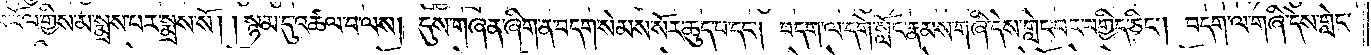ཕ་རོལ་གྱིས་མ་སྨྲས་པར་སྨྲས་སོ། །སྙམ་དུ་འཚལ་བ་ལས། དུས་གཞན་ཞིག་ན་བདག་སེམས་སོར་ཆུད་པ་དང༌། བདག་ལ་དགེ་སློང་རྣམས་གཞི་དེས་གླེང་བར་བགྱིད་ཅིང༌། བདག་ལ་གཞི་དེས་གླེང་
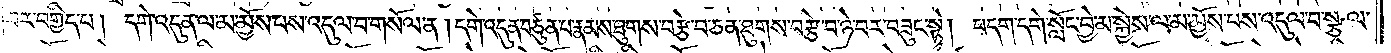བར་བགྱིད་པ། དགེ་འདུན་ལ་མ་མྱོས་པས་འདུལ་བ་གསོལ་ན། དགེ་འདུན་བཙུན་པ་རྣམས་ཐུགས་བརྩེ་བ་ཅན་ཐུགས་བརྩེ་བ་ཉེ་བར་བཟུང་སྟེ། བདག་དགེ་སློང་བྱེ་མ་སྐྱེས་ལ་མ་མྱོས་པས་འདུལ་བ་སྩལ་
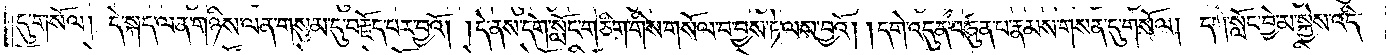དུ་གསོལ། དེ་སྐད་ལན་གཉིས་ལན་གསུམ་དུ་བརྗོད་པར་བྱའོ། །དེ་ནས་དགེ་སློང་གཅིག་གིས་གསོལ་བ་བྱས་ཏེ་ལས་བྱའོ། །དགེ་འདུན་བཙུན་པ་རྣམས་གསན་དུ་གསོལ། དགེ་སློང་བྱེ་མ་སྐྱེས་འདི་
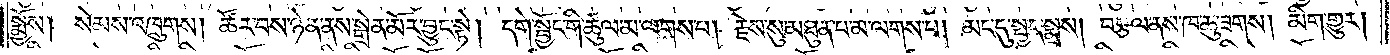སྨྱོས། སེམས་འཁྲུགས། ཚོར་བས་ཉེན་ནས་སྒྲེན་མོར་བྱུང་སྟེ། དགེ་སྦྱོང་གི་ཚུལ་མ་ལགས་པ། རྗེས་སུ་མཐུན་པ་མ་ལགས་པ། མང་དུ་སྤྱད་སྨྲས། བརྩལ་ནས་ཁ་ཆུ་ཟགས། མིག་གྱུར།
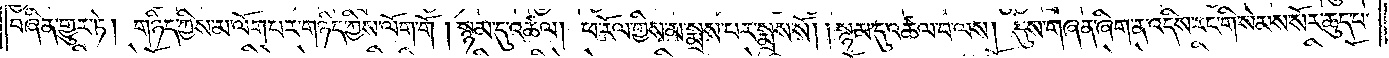བཞིན་གྱུར་ཏེ། གཉིད་ཀྱིས་མ་ལོག་པར་གཉིད་ཀྱིས་ལོག་གོ །སྙམ་དུ་འཚལ། ཕ་རོལ་གྱིས་མ་སྨྲས་པར་སྨྲས་སོ། །སྙམ་དུ་འཚལ་བ་ལས། དུས་གཞན་ཞིག་ན་འདིས་རང་གི་སེམས་སོར་ཆུད་པ་
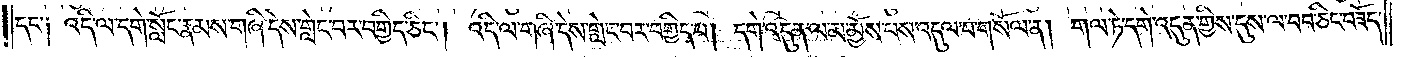དང༌༑ འདི་ལ་དགེ་སློང་རྣམས་གཞི་དེས་གླེང་བར་བགྱིད་ཅིང༌། འདི་ལ་གཞི་དེས་གླེང་བར་བགྱིད་པ། དགེ་འདུན་ལ་མ་མྱོས་པས་འདུལ་བ་གསོལ་ན། གལ་ཏེ་དགེ་འདུན་གྱིས་དུས་ལ་བབ་ཅིང་བཟོད་
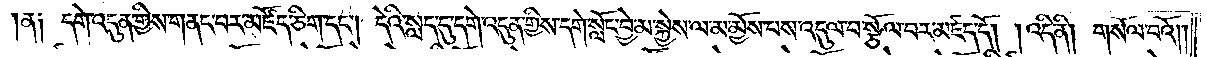ན༑ དགེ་འདུན་གྱིས་གནང་བར་མཛོད་ཅིག་དང༌། དེའི་སླད་དུ་དགེ་འདུན་གྱིས་དགེ་སློང་བྱེ་མ་སྐྱེས་ལ་མ་མྱོས་པས་འདུལ་བ་སྩོལ་བར་མཛད་དོ། །འདི་ནི། གསོལ་བའོ༎
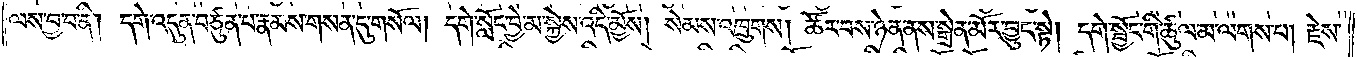ལས་བྱ་བ་ནི། དགེ་འདུན་བཙུན་པ་རྣམས་གསན་དུ་གསོལ། དགེ་སློང་བྱེ་མ་སྐྱེས་འདི་མྱོས། སེམས་འཁྲུགས། ཚོར་བས་ཉེན་ནས་སྒྲེན་མོར་བྱུང་སྟེ། དགེ་སྦྱོང་གི་ཚུལ་མ་ལགས་པ། རྗེས་
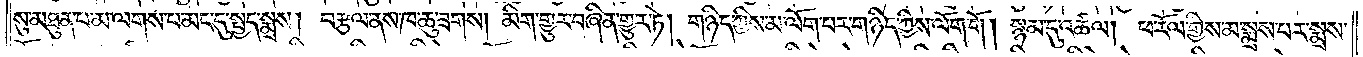སུ་མཐུན་པ་མ་ལགས་པ་མང་དུ་སྤྱད་སྨྲས། བརྩལ་ནས་ཁ་ཆུ་ཟགས། མིག་གྱུར་བཞིན་གྱུར་ཏེ། གཉིད་ཀྱིས་མ་ལོག་པར་གཉིད་ཀྱིས་ལོག་གོ །སྙམ་དུ་འཚལ། ཕ་རོལ་གྱིས་མ་སྨྲས་པར་སྨྲས་
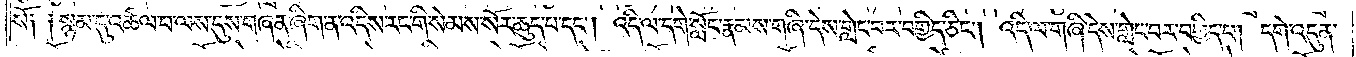སོ། །སྙམ་དུ་འཚལ་བ་ལས་དུས་གཞན་ཞིག་ན་འདིས་རང་གི་སེམས་སོར་ཆུད་པ་དང༌། འདི་ལ་དགེ་སློང་རྣམས་གཞི་དེས་གླེང་བར་བགྱིད་ཅིང༌། འདི་ལ་གཞི་དེས་གླེང་བར་བགྱིད་པ། དགེ་འདུན་
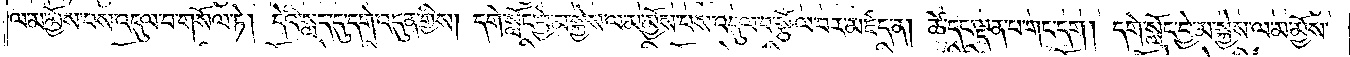ལ་མ་མྱོས་པས་འདུལ་བ་གསོལ་ཏེ། དེའི་སླད་དུ་དགེ་འདུན་གྱིས། དགེ་སློང་བྱེ་མ་སྐྱེས་ལ་མ་མྱོས་པས་འདུལ་བ་སྩོལ་བར་མཛད་ན། ཚེ་དང་ལྡན་པ་གང་དག །དགེ་སློང་བྱེ་མ་སྐྱེས་ལ་མ་མྱོས་
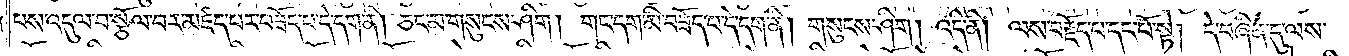པས་འདུལ་བ་སྩོལ་བར་མཛད་པར་བཟོད་པ་དེ་དག་ནི། ཅང་མ་གསུངས་ཤིག །གང་དག་མི་བཟོད་པ་དེ་དག་ནི། གསུངས་ཤིག །འདི་ནི། ལས་བརྗོད་པ་དང་པོ་སྟེ། དེ་བཞིན་དུ་ལས་
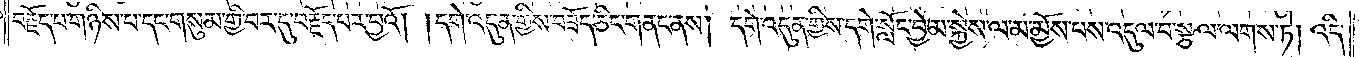བརྗོད་པ་གཉིས་པ་དང་གསུམ་གྱི་བར་དུ་བརྗོད་པར་བྱའོ། །དགེ་འདུན་གྱིས་བཟོད་ཅིང་གནང་ནས། དགེ་འདུན་གྱིས་དགེ་སློང་བྱེ་མ་སྐྱེས་ལ་མ་མྱོས་པས་འདུལ་བ་སྩལ་ལགས་ཏེ། འདི་
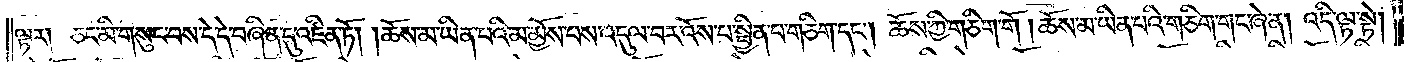ལྟར། ཅང་མི་གསུང་བས་དེ་དེ་བཞིན་དུ་འཛིན་ཏོ། །ཆོས་མ་ཡིན་པའི་མ་མྱོས་པས་འདུལ་བར་འོས་པ་སྦྱིན་པ་གཅིག་དང༌། ཆོས་ཀྱི་གཅིག་གོ །ཆོས་མ་ཡིན་པའི་གཅིག་གང་ཞེ་ན། འདི་ལྟ་སྟེ།
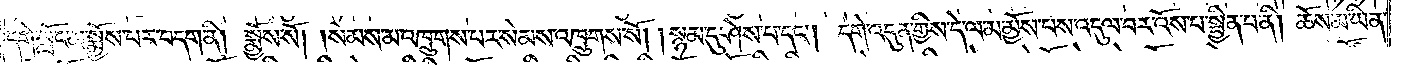དགེ་སློང་མ་སྨྱོས་པར་བདག་ནི། སྨྱོས་སོ། །སེམས་མ་འཁྲུགས་པར་སེམས་འཁྲུགས་སོ། །སྙམ་དུ་ཤེས་པ་དང༌། དགེ་འདུན་གྱིས་དེ་ལ་མ་མྱོས་པས་འདུལ་བར་འོས་པ་སྦྱིན་པ་ནི། ཆོས་མ་ཡིན་
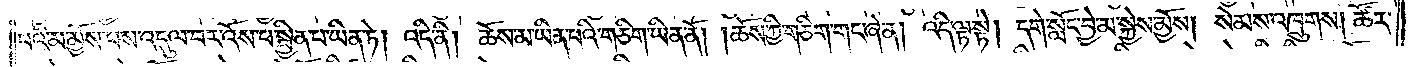པའི་མ་མྱོས་པས་འདུལ་བར་འོས་པ་སྦྱིན་པ་ཡིན་ཏེ། འདི་ནི། ཆོས་མ་ཡིན་པའི་གཅིག་ཡིན་ནོ། །ཆོས་ཀྱི་གཅིག་གང་ཞེ་ན། འདི་ལྟ་སྟེ། དགེ་སློང་བྱེ་མ་སྐྱེས་མྱོས། སེམས་འཁྲུགས། ཚོར་
